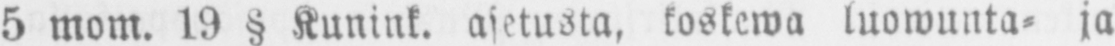5 mom. 19 § Kunink. asetusta, koskewa luowunta- ja
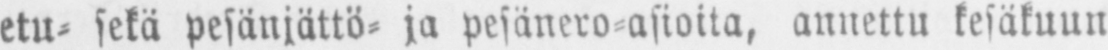etu- sekä pesänjättö- ja pesänero-asioita, annettu kesäkuun
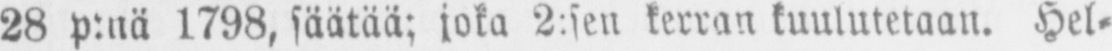28 p:nä 1798, säätää; joka 2:sen kerran kuulutetaan. Hel-
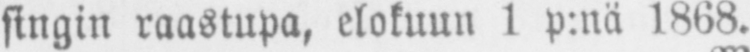singin raastupa, elokuun 1 p:nä 1868.
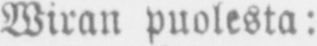Wiran puolesta:
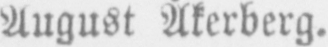August Åkerberg.
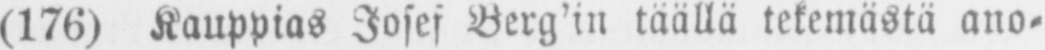(176) Kauppias Josef Berg'in täällä tekemästä ano-
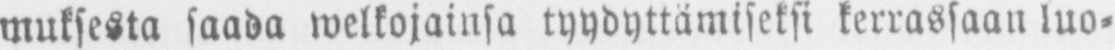muksesta saada welkojainsa tyydyttämiseksi kerrassaan luo-
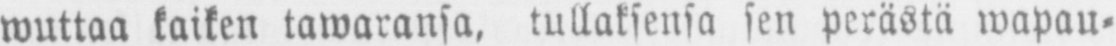wuttaa kaiken tawaransa, tullaksensa sen perästä wapau-
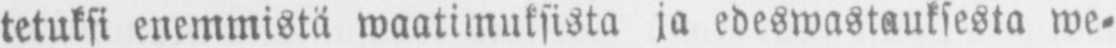tetuksi enemmistä waatimuksista ja edeswastauksesta we-
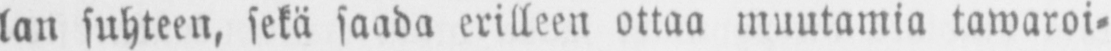lan suhteen, sekä saada erilleen ottaa muutamia tawaroi-
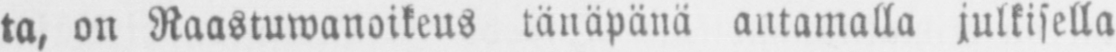ta, on Raastuwanoikeus tänäpänä antamalla julkisella
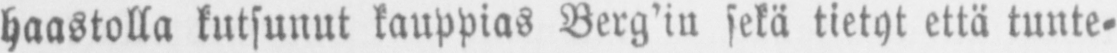haastolla kutsunut kauppias Berg'in sekä tietyt että tunte-
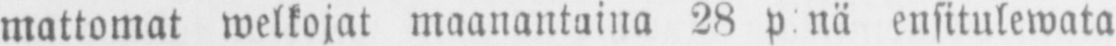mattomat welkojat maanantaina 28 p:nä ensitulewata
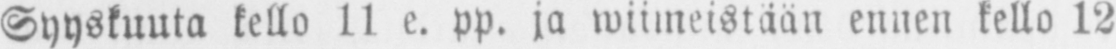Syyskuuta kello 11 e. pp. ja wiimeistään ennen kello 12
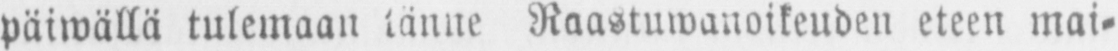päiwällä tulemaan tänne Raastuwanoikeuden eteen mai-
